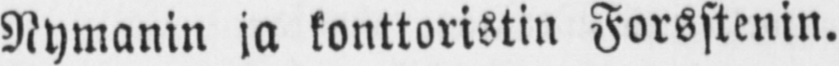Nymanin ja konttoristin Forsstenin.
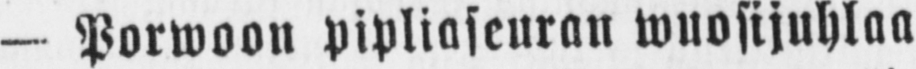- Porwoon pipliaseuran wuosijuhlaa
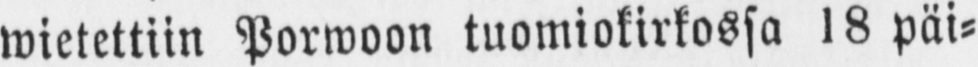wietettiin Porwoon tuomiokirkossa 18 päi-
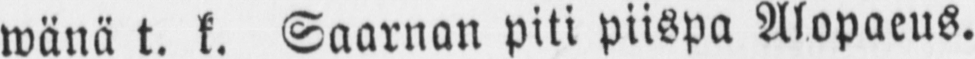wänä t. k. Saarnan piti piispa Alopaeus.
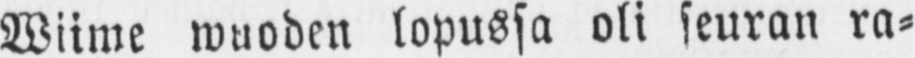Wiime wuoden lopussa oli seuran ra-
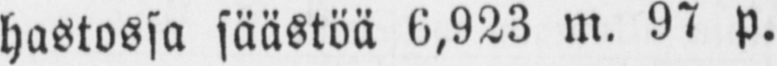hastossa säästöä 6,923 m. 97 p.
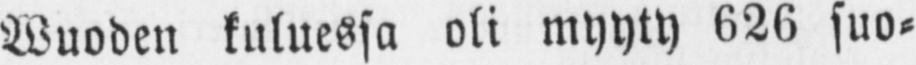Wuoden kuluessa oli myyty 626 suo-
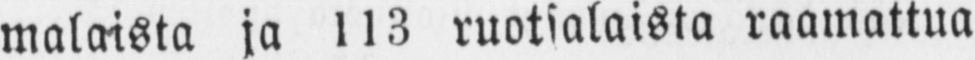malaista ja l13 ruotsalaista raamattua
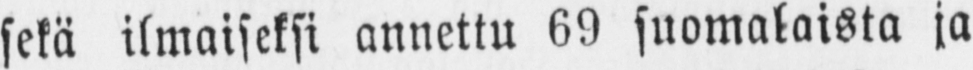sekä ilmaiseksi annettu 69 suomalaista ja
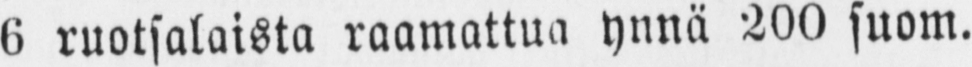6 ruotsalaista raamattua ynnä 200 suom.
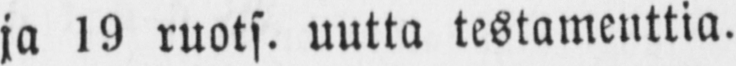ja 19 ruots. uutta testamenttia.
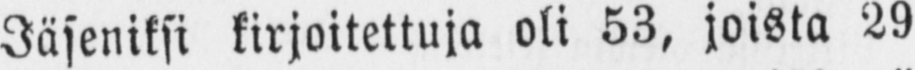Jäseniksi kirjoitettuja oli 53, joista 29
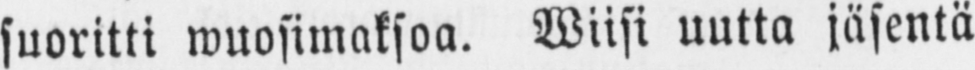suoritti wuosimaksoa. Wiisi uutta jäsentä
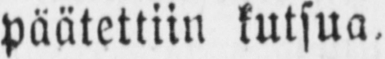päätettiin kutsua.
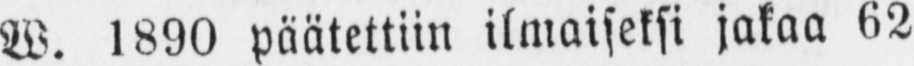W. 1890 päätettiin ilmaiseksi jakaa 62
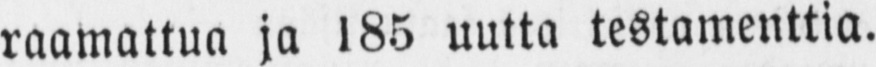raamattua ja 185 uutta testamenttia.
